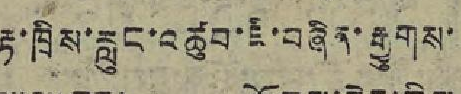རྟ་ཁྲིས་རླུང་འཚུབ་ཇི་བཞིན་རྒྱུགས
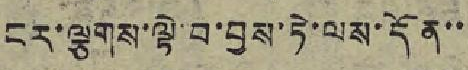ངར་ལྕགས་ལྟེ་བ་བྱས་ཏེ་ལས་དོན་་
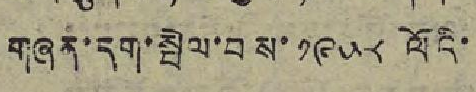གཞན་དག་སྤེལ་བས་ ༡༩༥༨ ལོའི་
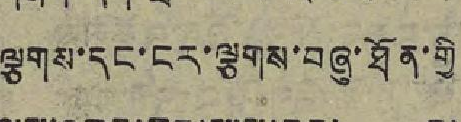ལྕགས་དང་ངར་ལྕགས་བཞུ་ཐོན་གྱི
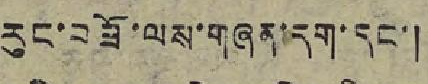རུང་བཟོ་ལས་གཞན་དག་དང་།
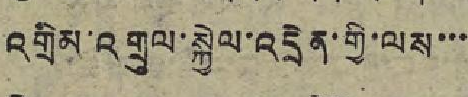འགྲིམ་འགྲུལ་སྐྱེལ་འདྲེན་གྱི་ལས་་་
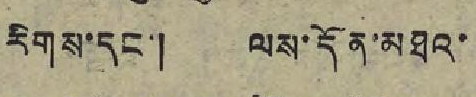རིགས་དང་། ལས་དོན་མཐའ་
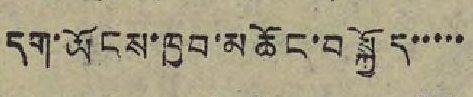དག་ཡོངས་ཁྱབ་མཆོང་བསྐྱོད་་་་་
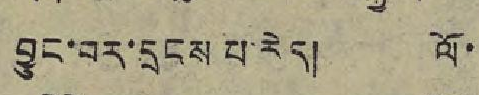བྱུང་བར་དྲངས་པ་རེད། ལོ
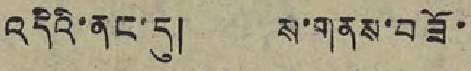འདིའི་ནང་དུ། ས་གནས་བཟོ་
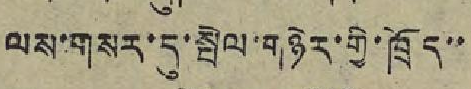ལས་གསར་དུ་སྤེལ་གཉེར་གྱི་ཁྲོད་་
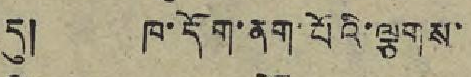དུ། ཁ་དོག་ནག་པོའི་ལྕགས་
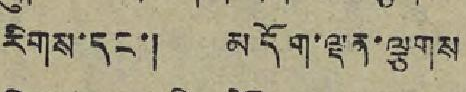རིགས་དང་། མདོག་ལྡན་ལྕགས
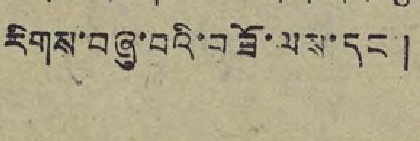རིགས་བཞུ་བའི་བཟོ་ལས་དང་།
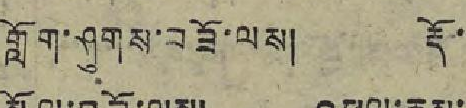གློག་ལུགས་བཟོ་ལས། རྡོ་
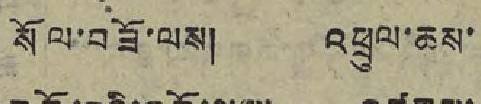སོལ་བཟོ་ལས། འཕྲུལ་ཆས་
